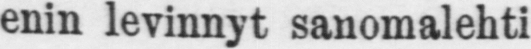enin levinnyt sanomalehti
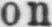on
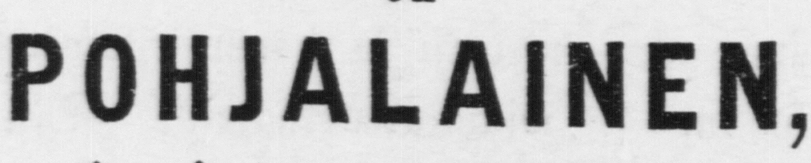POHJALAINEN,
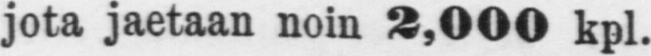jota jaetaan noin 2,000 kpl.
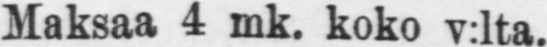Maksaa 4 mk. koko v:lta.
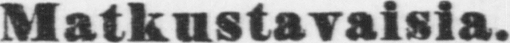Matkustavaisia.
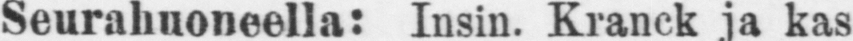Seurahuoneella: Insin. Kranck ja Kas-
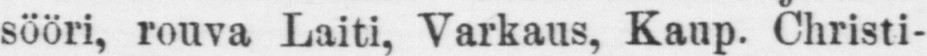sööri, rouva Laiti Varkaus, Kaup. Christi-
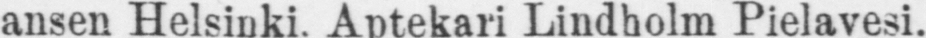ansen Helsinki. Aptekari Lindholm Pielavesi.
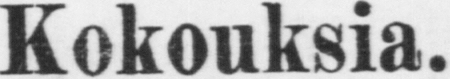kokouksia.
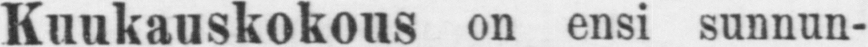kuukauskokous,on ensi sunnun-
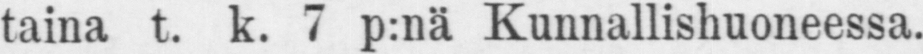taina t. k. 7 p:nä kunna11ishuoneessa.
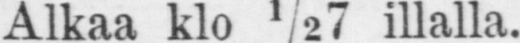Alkaa klo ½7 illalla.
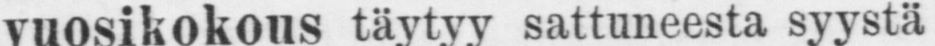„PUIJON"
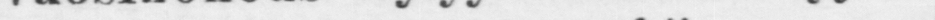vuosikokous täytyy sattuneesta syystä
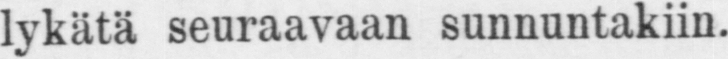lykätä seuraavaan sunnuntakiin.
